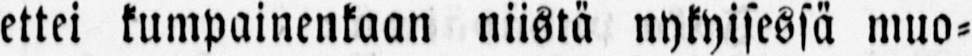ettei kumpainenkaan niistä nykyisessä muo-
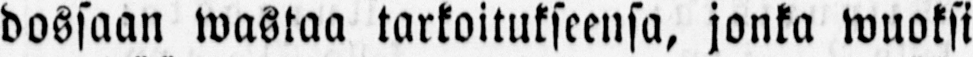dossaan wastaa tarkoitukseensa, jonka wuoksi
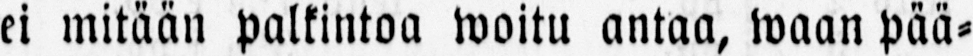ei mitään palkintoa woitu antaa, waan pää-
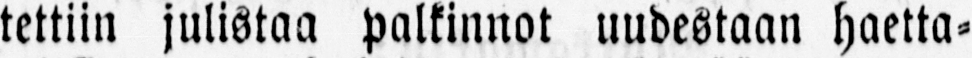tettiin julistaa palkinnot uudestaan haetta-
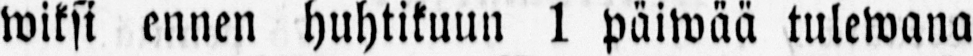wiksi ennen huhtikuun 1 päiwää tulewana
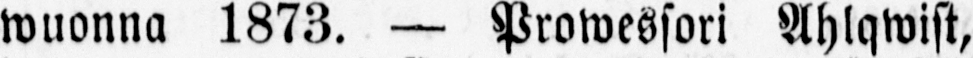wuonna 1873. — Prowessori Ahlqwist,
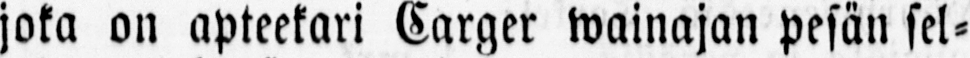joka on apteekari Carger wainajan pesän sel-
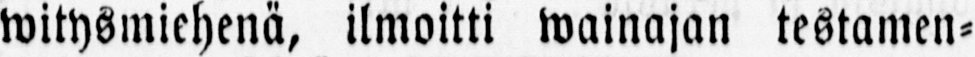witysmiehenä, ilmoitti wainajan testamen-
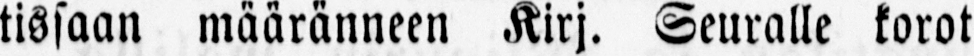tissaan määränneen Kirj. Seuralle korot
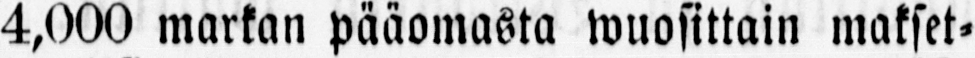4,000 markan pääomasta wuosittain makset-
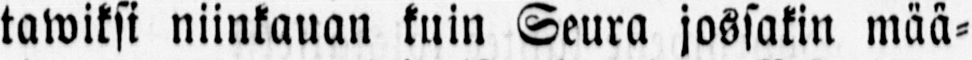tawiksi niinkauan kuin Seura jossakin mää-
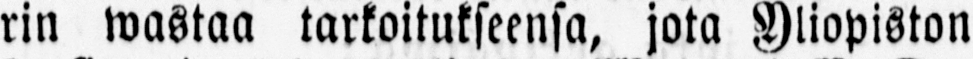rin wastaa tarkoitukseensa, jota Yliopiston
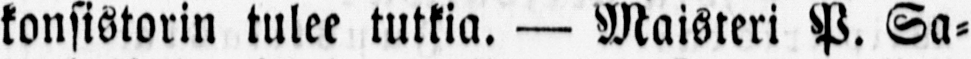konsistorin tulee tutkia. — Maisteri P. Sa-
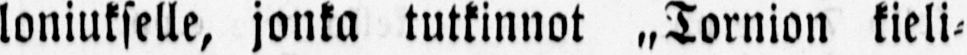loniukselle, jonka tutkinnot „Tornion kieli-
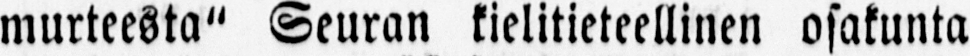murteesta" Seuran kielitieteellinen osakunta
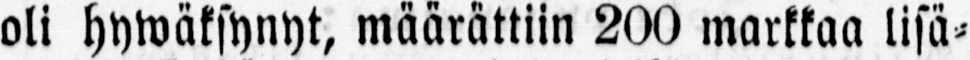oli hywäksynyt, määrättiin 200 markkaa lisä-
